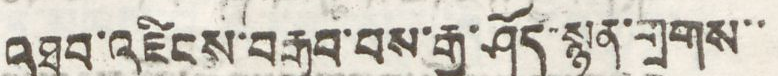འཐབ་འཛིངས་བརྒྱབ་བས་རྒྱ་ཤོད་སྙན་གྲགས་་
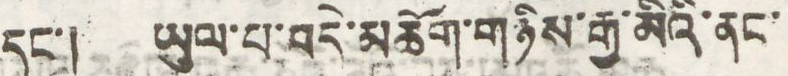དང་། ཡུལ་པ་བདེ་མཆོག་གཉིས་རྒྱ་མིའི་ནང་
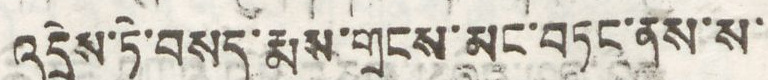འདྲེས་ཏེ་བསད་རྨས་གྲངས་མང་བཏང་ནས་ས་
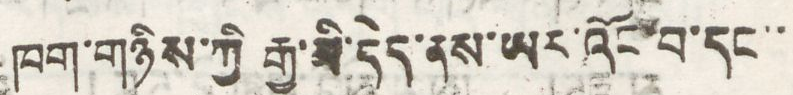ཁག་གཉིས་ཀྱི རྒྱ་མི་དེད་ནས་ཡར་འོང་བ་དང་་
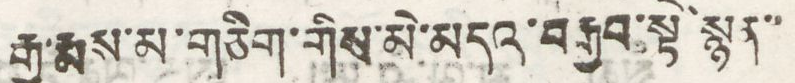རྒྱ་རྨས་མ་གཅིག་གིས་མེ་མདའ་བརྒྱབ་སྟེ་སྙན་་
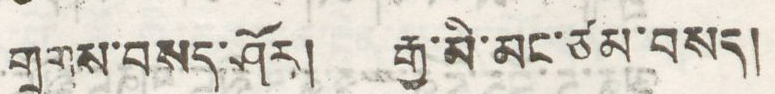གྲགས་བསད་ཤོར། རྒྱ་མི་མང་ཙམ་བསད།
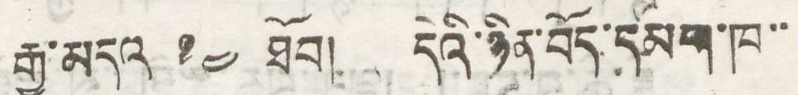རྒྱ་མདའ ༡༤ ཐོབ། དེའི་ཉིན་བོད་དམག་ཁ་་
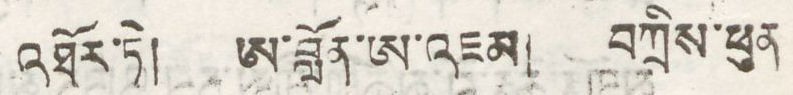འཐོར་ཏེ། ཨ་བློན་ཨ་འཇམ། བཀྲིས་ཕུན
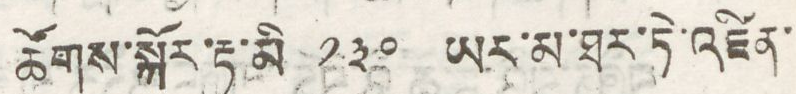ཚོགས་སྐོར་རྟ་མི་ ༡༣༠ ཡར་མ་ཐར་ཏེ་འཛིན་
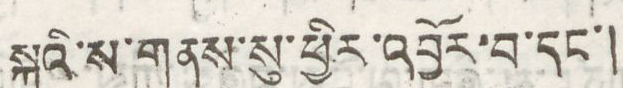སྐུའི་ས་གནས་སུ་ཕྱིར་འབྱོར་བ་དང་།
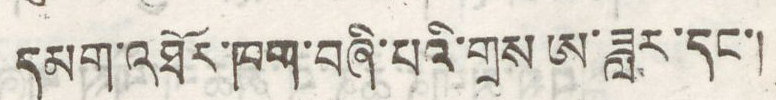དམག་འཐོར་ཁག་བཞི་པའི་གྲས ཨ་ཟླར་དང་།
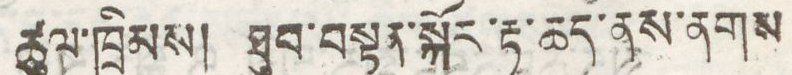ཚུལ་ཁྲིམས། ཐུབ་བསྟན་སྐོར་རྟ་ཆད་ནས་ནགས
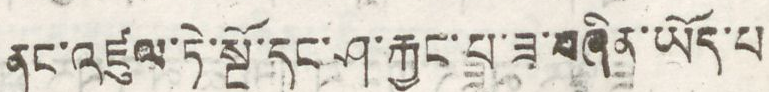ནང་འཛུལ་ཏེ་སྔོ་དང་ཤ་རྐྱང་པ་ཟ་བཞིན་ཡོད་པ
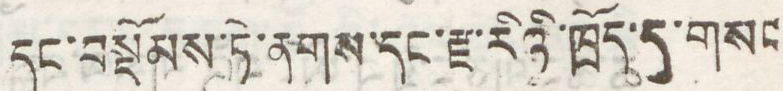དང་བསྡོམས་ཏེ་ནགས་དང་རྫ་རེའི་ཁྲོད་དུ་གསང
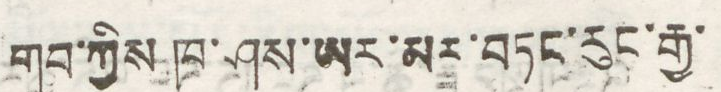གབ་ཀྱིས ཁ་ཤས་ཡར་མར་བཏང་རུང་རྒྱ་
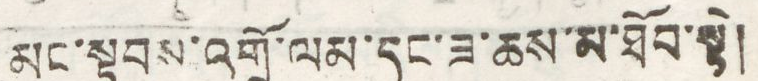མང་སྟབས་འགྲོ་ལམ་དང་ཟ་ཆས་མ་ཐོབ་སྟེ།
